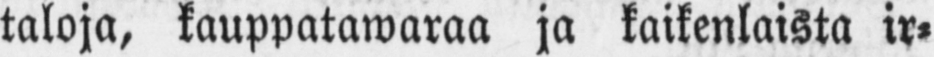taloja, kauppatawaraa ja kaikenlaista ir-
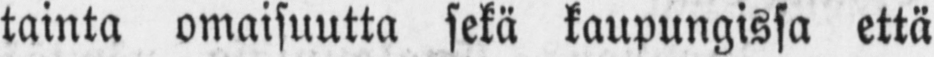tainta omaisuutta sekä kaupungissa että
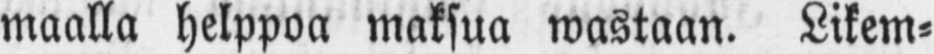maalla helppoa maksua wastaan. Likem-
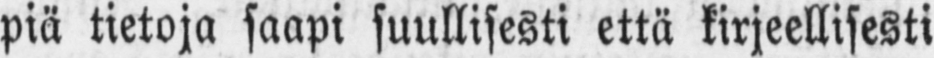piä tietoja saapi suullisesti että kirjeellisesti
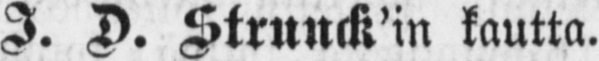J. D. Strunck'in kautta.
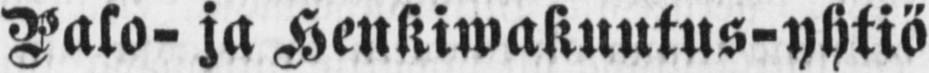Palo- ja Henkiwakuutus-yhtiö
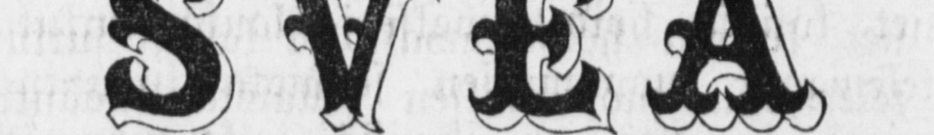SVEA
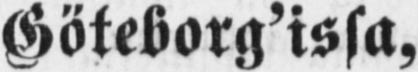Göteborg'issa,
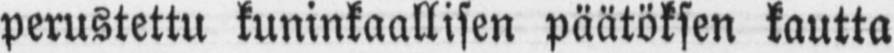perustettu kuninkaallisen päätöksen kautta
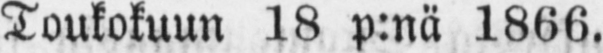— Toukokuun 18 p:nä 1866.
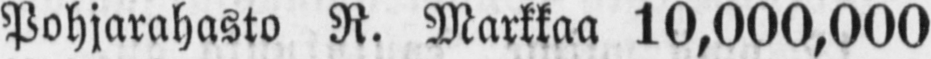Pohjarahasto R. Markkaa 10,000,000
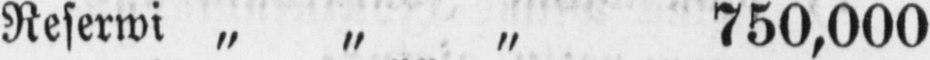Reserwi „ „ „ 750,000
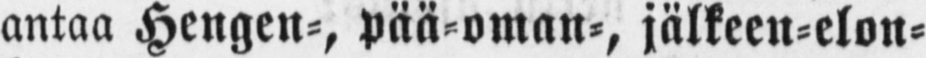antaa Hengen-, pää-oman-, jälkeen-elon-
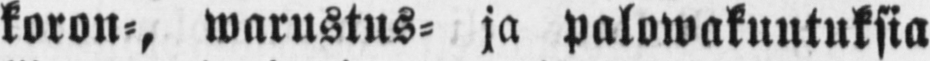koron-, warustus- ja palowakuutuksia
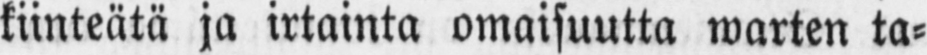kiinteätä ja irtainta omaisuutta warten ta-
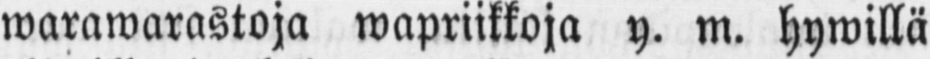warawarastoja wapriikkoja y. m. hywillä
